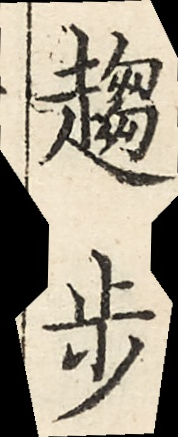趨步
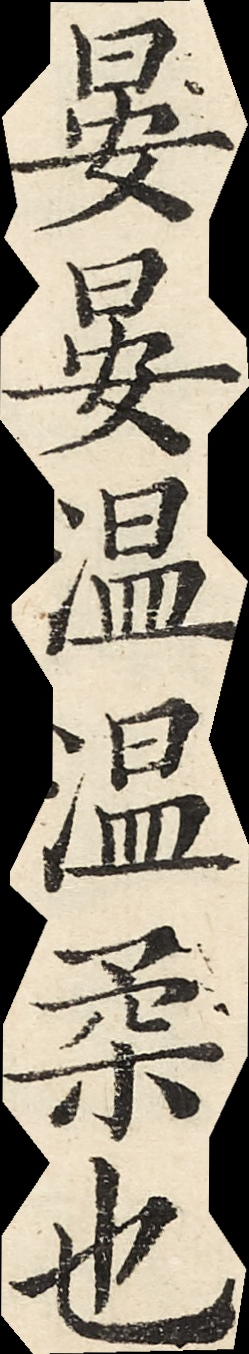晏晏溫溫柔也
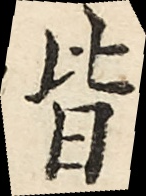皆
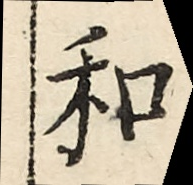和
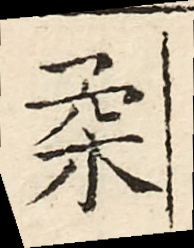柔
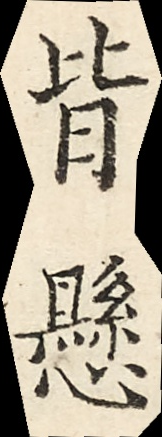皆縣
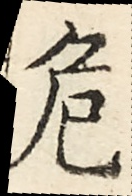危
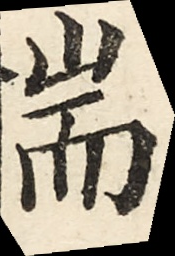惴
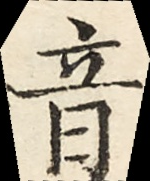墜
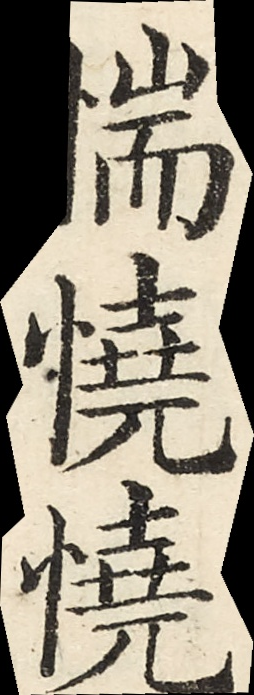惴憢憢
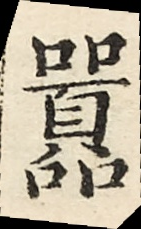囂
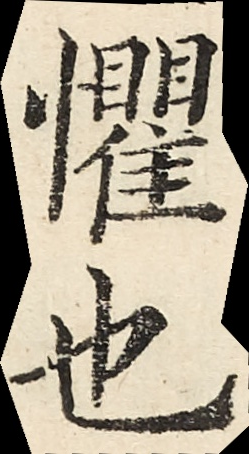懼也
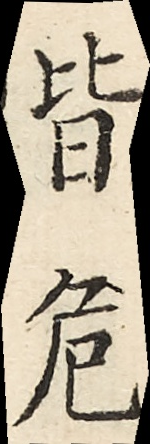皆危
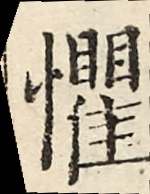懼
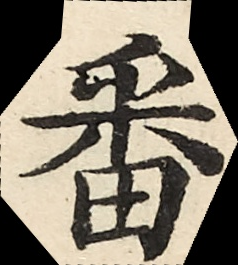番
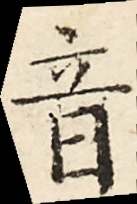音
